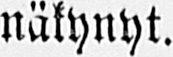näkynyt.
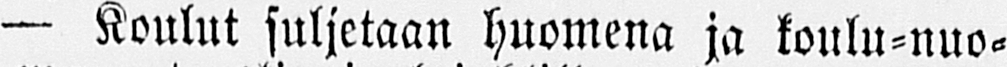— Koulut suljetaan huomena ja koulu-nuo-
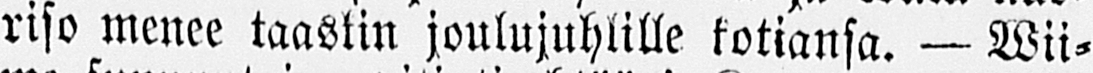riso menee taaskin joulujuhlille kotiansa. — Wii-
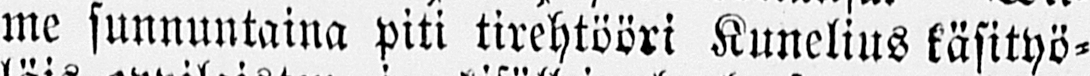me sunnuntaina piti tirehtööri Kunelius käsityö-
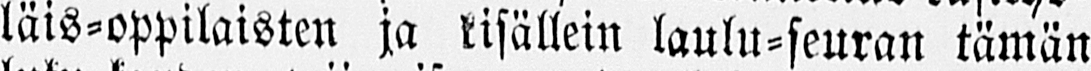läis-oppilaisten ja kisällein laulu-seuran tämän
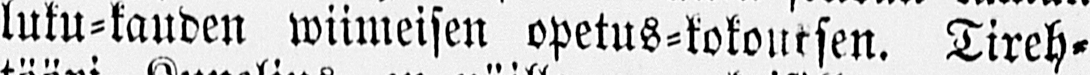luku-kauden wiimeisen opetus-kokouksen. Tireh-
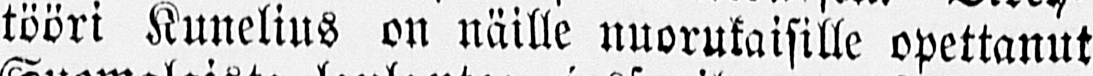tööri Kunelius on näille nuorukaisille opettanut
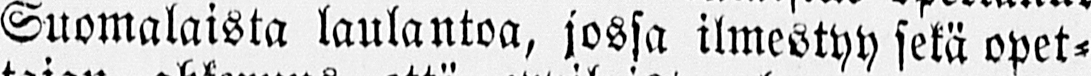Suomalaista laulantoa, jossa ilmestyy sekä opet-
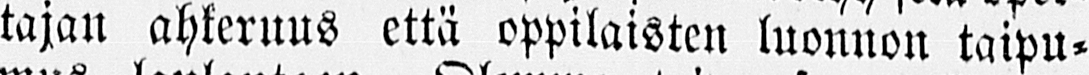tajan ahkeruus että oppilaisten luonnon taipu-
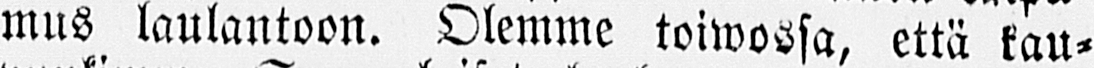mus laulantoon. Olemme toiwossa, että kau-
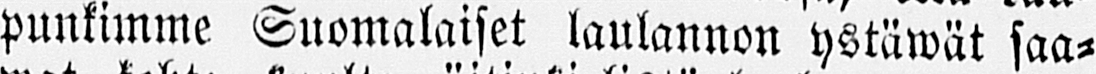punkimme Suomalaiset laulannon ystäwät saa-
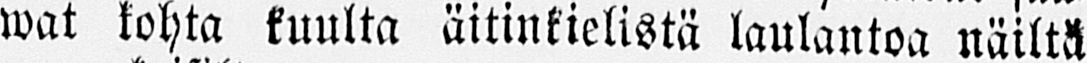wat kohta kuulta äitinkielistä laulantoa näiltä
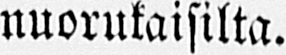nuorukaisilta.
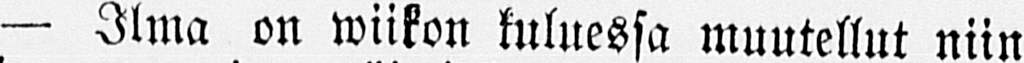— Ilma on wiikon kuluessa muutellut niin
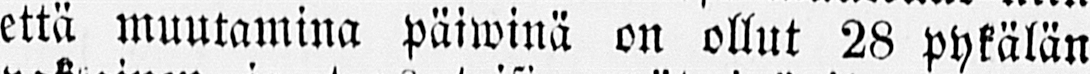että muutamina päiwinä on ollut 28 pykälän
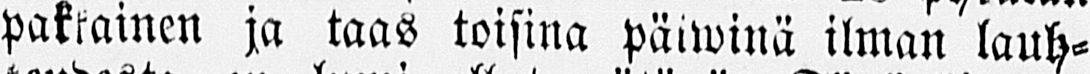pakkainen ja taas toisina päiwinä ilman lauh-
